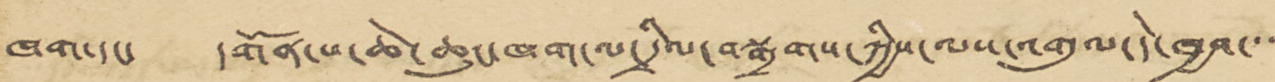ཁག་དང་ དགོན་པ་ཆེ་ཆུང་ཁག་ལ་དྲེལ་བསྒྲགས་ཀྱིས་ལས་འགུལ་དེ་ཁྱབ་་་་
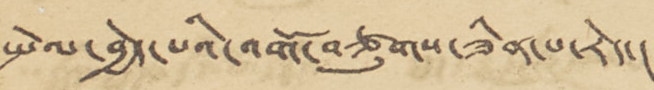སྤེལ་བྱེད་པའི་འགོ་བཙུགས་ཟིན་པ་རེད་།
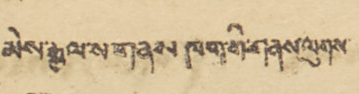མེས་རྒྱལ་ས་གནས་ཁག་གི་གནས་ལུགས་
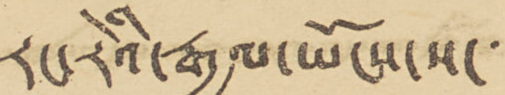རང་རེའི་རྒྱལ་ཡོངས་ས་་་་་་
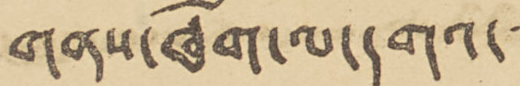གནས་ཁག་ལ་དགའ་་་་་
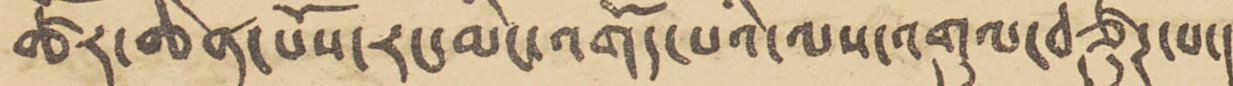ཚོར་ཆེན་པོས་རང་མིང་འགོད་པའི་ལས་འགུལ་བཙུཊ་པ་།
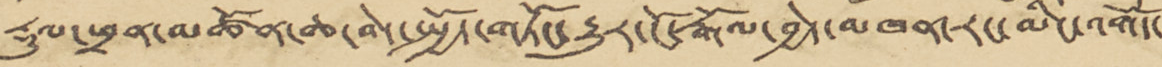རྡུལ་ཕྲན་མཚོན་ཆ་བེད་སྤྱོད་གཏོང་རྒྱུར་ངོ་རྒོལ་བྱེད་མཁན་རང་མིང་འགོད་
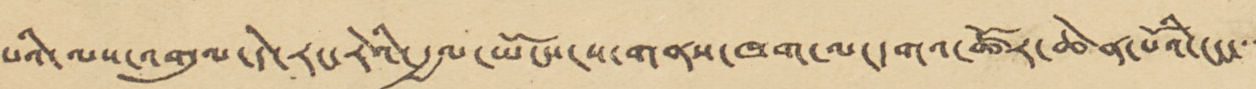པའི་ལས་འགུལ་དེ་རང་རེའི་རྒྱལ་ཡོངས་ས་གནས་ཁག་ལ་དགའ་ཚོར་ཆེན་པོའི་ངང་་་་
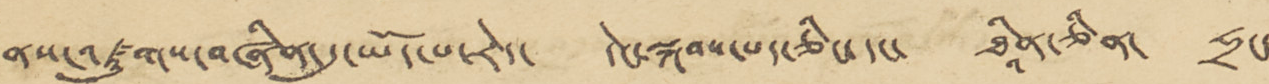ནས་འཛུགས་བཞིན་དུ་ཡོད་པ་རེད་ དེངས་སྐབས་པད་ཅིང་དང་ ཐཱིན་ཅིན་ ཧྲང་
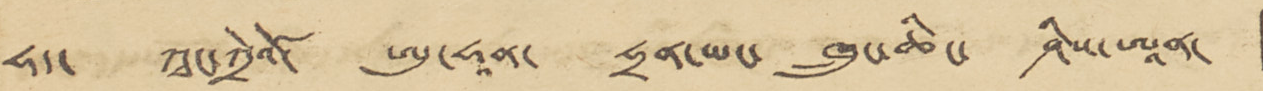ཧད་ ཀཱང་ཀྲེའོ་ ཨུ་ཧཱན་ ཧྲན་ཡང་ ཁྲུང་ཆིང་ ཤིས་ཨཱན་ །
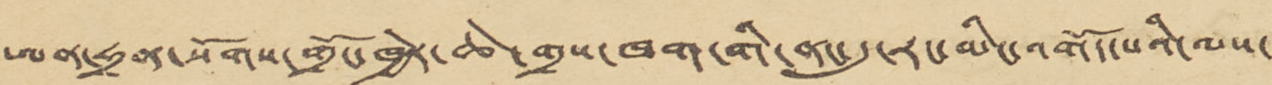ཨན་ཧྲན་སོགས་གྲོང་ཁྱེར་ཆེ་གྲས་ཁག་གི་ནང་དུ་རང་མིང་འགོད་པའི་ལས་
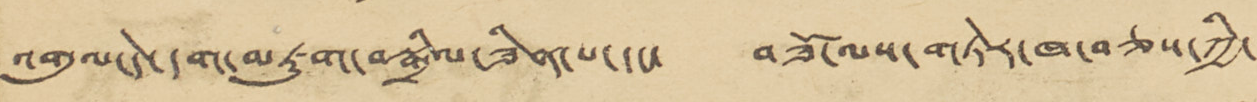འགུལ་དེ་དག་མཇུག་བསྒྲིལ་ཟིན་པ་དང་ བཟོ་ལས་གཏེར་ཁ་བཅས་ཀྱི་་་
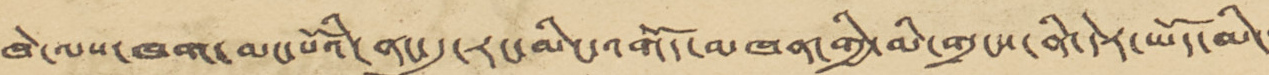ཁེ་ལས་ཁག་མང་པོའི་ནང་དུ་རང་མིང་འགོད་མཁན་གྱི་མི་གྲངས་ནི་དེར་ཡོད་མི་་
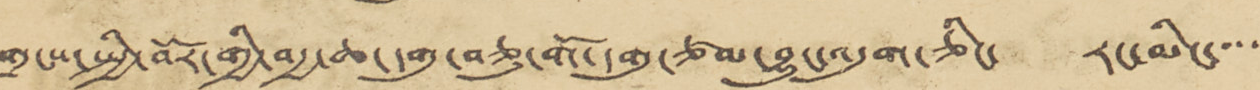གྲངས་སྤྱི་བོར་གྱི་བརྒྱ་ཆ་དགུ་བཅུ་གོ་དགུ་ཙམ་བྱུང་འདུག་ཅིང་ རང་མིང་་་་་
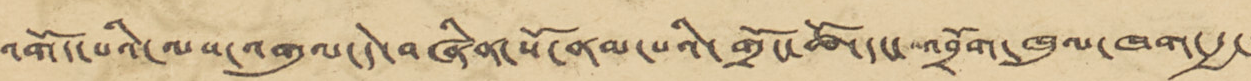འགོད་པའི་ལས་འགུལ་དེ་བཞིན་སོ་ནམ་པའི་གྲོང་ཚོ་དང་འབྲོག་ཁུལ་ཁག་རྒྱ་་་
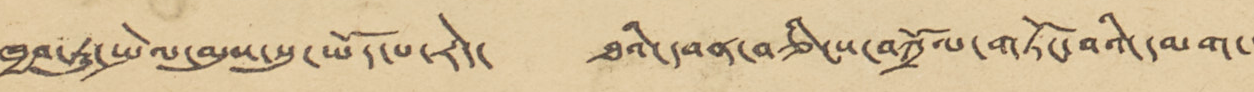ཁྱབ་ཏུ་སྤེལ་མུས་སུ་ཡོད་པ་རེད་ ཐའི་དབན་བཅིངས་བཀྲོལ་གཏོང་བའི་དམག་་
